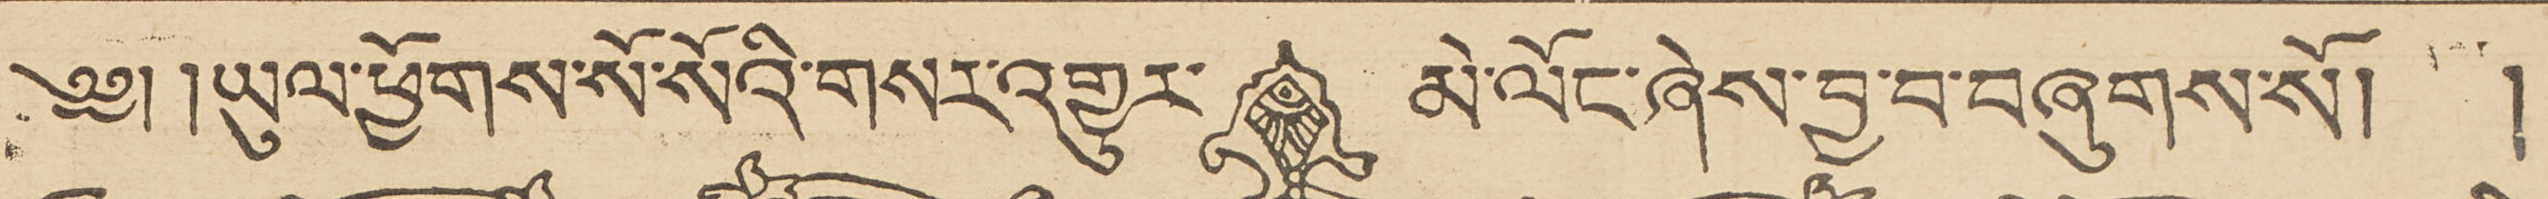༄༅། །ཡུལ་ཕྱོགས་སོ་སོའི་གསར་འགྱུར་མེ་ལོང་ཞེས་བྱ་བ་བཞུགས་སོ། །
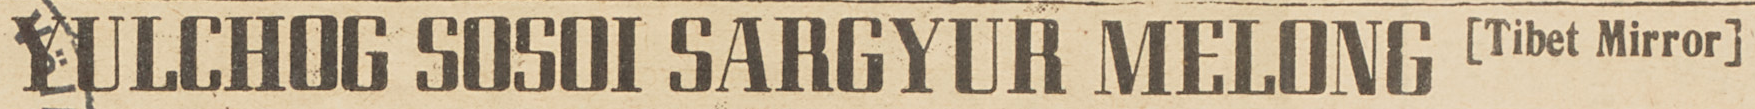YULCHOG SOSOI SARGYUR MELONG [Tibet Mirror]
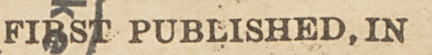FIRST PUBLISHED, IN
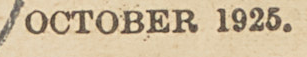OCTOBER 1925.
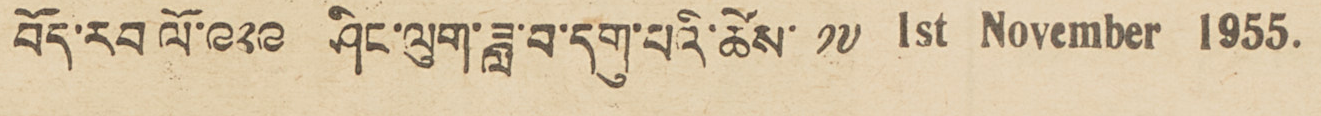བོད་རབ ལོ་༩༢༩ ཤིང་ལུག་ཟླ་བ་དགུ་པའི་ཚེས་ ༡༧ 1st November 1955.
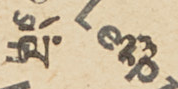ལོ་ ༢༣
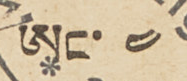ཨང་ ༤
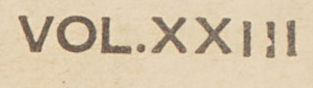VOL. XXIII
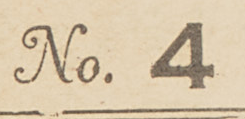No. 4
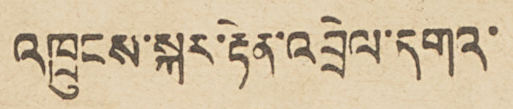འཁྲུངས་སྐར་རྟེན་འབྲེལ་དགའ་
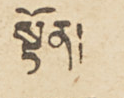སྟོན།
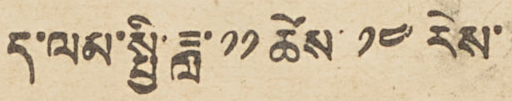ད་ལམ་སྤྱི་ཟླ་ ༡༡ ཚེས་ ༡༤ རེས་
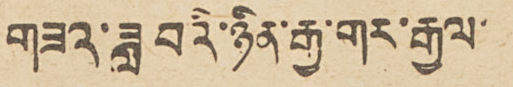གཟའ་ཟླ་བའི་ཉིན་རྒྱ་གར་རྒྱལ་
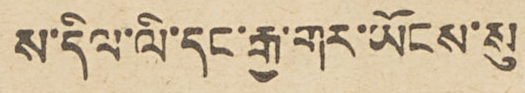ས་དིལ་ལི་དང་རྒྱ་གར་ཡོངས་སུ
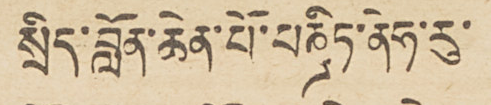སྲིད་བློན་ཆེན་པོ་པཎྜིཏ་ནེཧ་རུ་
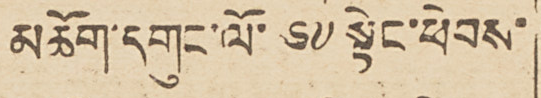མཆོག་དགུང་ལོ་ ༦༧ སྟེང་ཕེབས་
